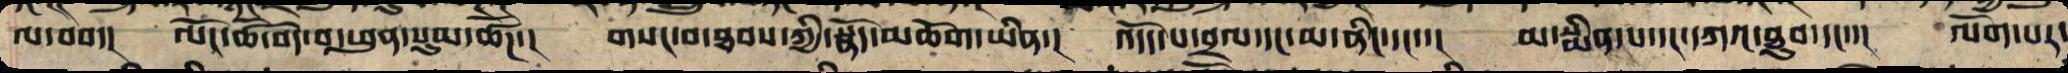ལ་བབ་། ལང་འཚོ་བདེ་བ་ཕུན་སུམ་ཚོཌ་། གསང་བ་ཐབས་ཀྱི་སྣོད་མཆོག་ཡིན་། འདོད་པ་བྲལ་དང་མ་ནིང་དང་་། མ་སྨིན་པ་དང་དཀའ་ཐུབ་ཅན་། ལོག་པར་
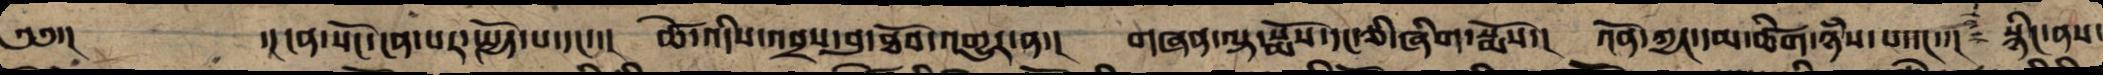༄༅་། ་ངན་སོང་ངན་པར་སྤྱོད་པ་ཡང་་། ཚེ་འདིས་འབྲས་བུ་ཐོབ་འགྱུར་ན་། གཞན་ལྟ་སྨོས་ཀྱང་ཅི་ཞིག་དག། འོན་ཀྱང་དམ་ཚིག་ཉཾས་པ་དང་། སྙིང་ནས་
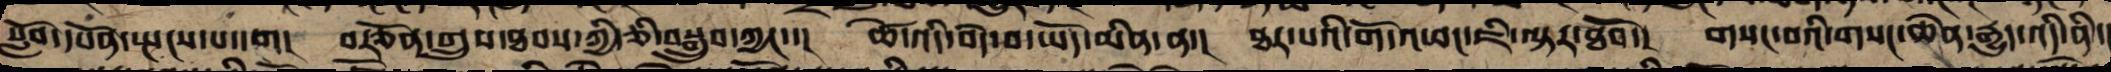སློབ་དཔོན་སྤངས་པ་དག། བརྩོན་འགྲུས་ཐབས་ཀྱིས་ཅི་བསྒྲུབས་ཀྱང་་། ཚེ་འདི་བདེ་བ་ཡོད་མིན་ན་། ཐར་པའི་གོ་འཕང་ཇི་ལྟར་ཐོབ་། གསང་བའི་གསང་ཆེན་རྒྱུད་འདི་ནི་།
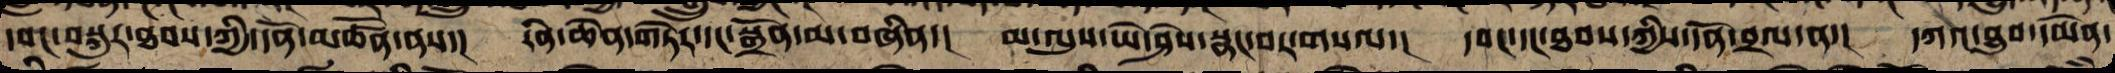དབང་བསྐུར་ཐབས་ཀྱི་དོན་མཚོན་ནས་། རིན་ཆེན་གཏེར་དང་སྒྲོན་མ་བཞིན་། མ་ལུས་ཡེ་ཤེས་སྣང་བར་གསལ་། དབང་དང་ཐབས་ཀྱི་དོན་བྲལ་ན་། དཀའ་ཐུབ་དམེན་
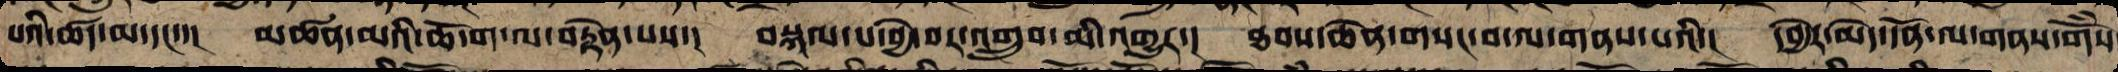པའི་ཚད་མ་དང་་། མཚན་མའི་ཆོ་ག་ལ་བརྟེན་པས་། བསྐལ་པ་བྱེ་བར་འགྲུབ་མི་འགྱུར་། ཐབས་ཆེན་གསང་བ་ལ་གནས་པའི་། དབྱེར་མེད་དོན་ལ་གནས་གོཾས་
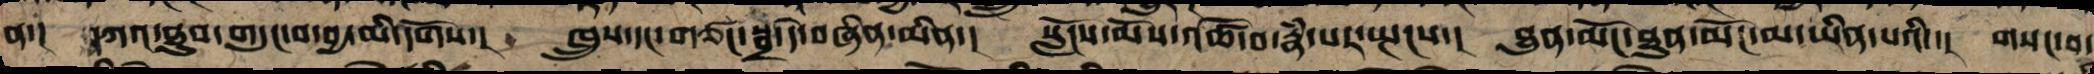ན་། དཀའ་ཐུབ་གདུང་བ་བྱ་མི་དགོས་། ཁྲུས་དང་གཙང་སྦྲ་དེ་བཞིན་མིན་། སློང་མོས་འཚོ་བ་རྣམ་པར་སྤང་་། ཐུན་མོང་ཐུན་མོང་མ་ཡིན་པའི་། གསང་བ་
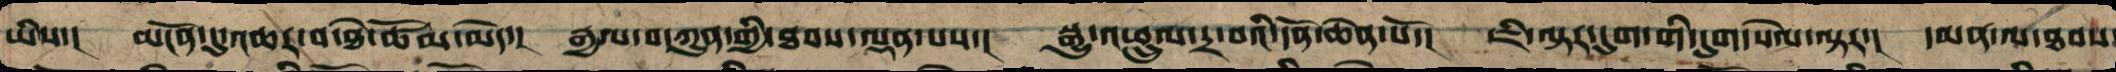ཡིས་། མངོན་དུ་འཆར་བར་ཐེ་ཚོམ་མེད་། རྒྱལ་བ་ཀུན་གྱི་ཐབས་ལྡན་པས་། སྒྱུ་འཕྲུལ་དྲ་བའི་དོན་ཆེན་པོ་། ཇི་ལྟར་དུག་གིས་དུག་སེལ་ལྟར་། དམན་ལ་ཐབས
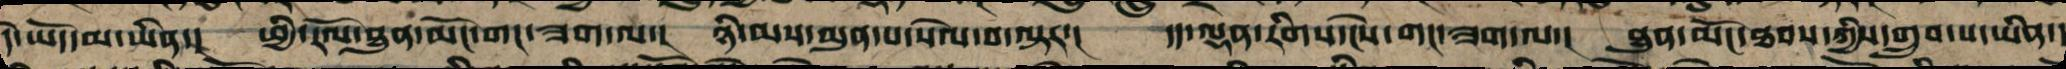དེ་ཡོད་མ་ཡིན་། ཕྱི་རོལ་ཐུན་མོང་གང་ཟག་ལ་། ཉི་མས་མུན་པ་སེལ་བ་ལྟར་། དད་ལྡན་རིགས་ངེས་གང་ཟག་ལ་། ཐུན་མོང་ཐབས་ཀྱིས་འགྲུབ་པ་ཡིན་།
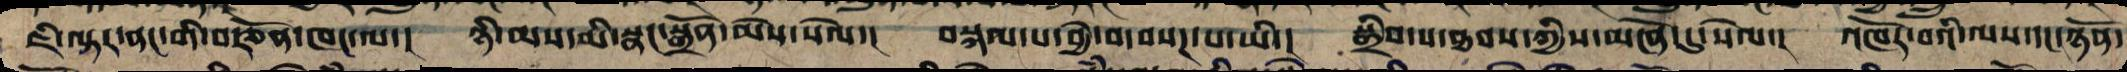ཇི་ལྟར་ནང་གི་བརྩོན་ཁང་ལ་། ཉི་མས་མི་སྣང་སྒྲོན་མེས་སེལ་། བསྐལ་པ་བྱེ་བར་བསཌ་པ་ཡི་། སྒྲིབ་པ་ཐབས་ཀྱིས་མངོན་དུ་སེལ་། འཁོར་བའི་ལས་དང་ཉོན་
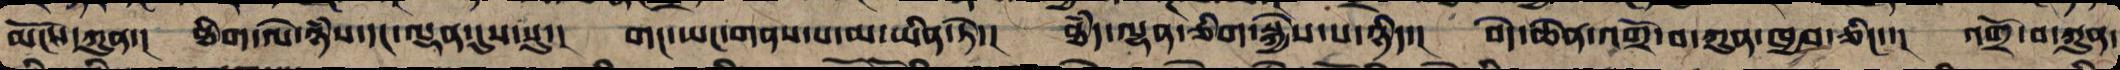མོངས་ཀུན་། ཐིག་ལེ་ཉཾས་དང་ལྡན་དུས་སུ་། གང་ཡང་གནས་པ་མ་ཡིན་ཏེ་། ཐཾད་ལྷན་ཅིག་སྐྱེས་པ་ཉིད་། བདེ་ཆེན་འགྲོ་བ་ཀུན་ཁྱབ་ཅིང་་། འགྲོ་བ་ཀུན་
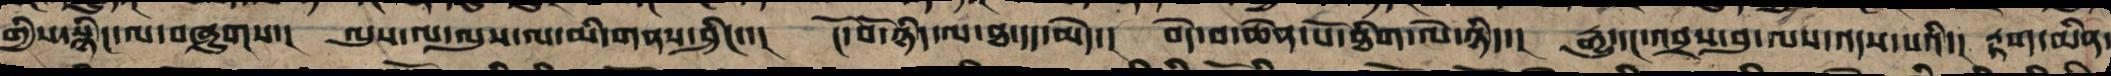གྱིས་སྙིང་ལ་བཞུགས་། ལུས་གནས་ལུས་ལ་མི་གནས་ཤིང་་། ངོ་བོ་ཉིད་ལ་ཐ་དད་མེད་། བདེ་བ་ཆེན་པོ་ཐིག་ལེ་ཉིད་། རྒྱུ་དང་འབྲས་བུ་ལས་འདས་པའི་། རྟག་མིན་
